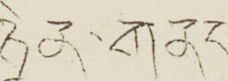ཉིན་གནང་
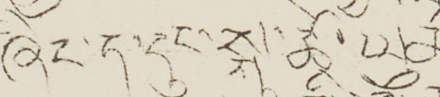ཞིང་ད་དུང་སྐུ་ཚེ་ཡུལ་རིང་འཚོ་བཞུགས་
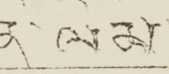ཀྱི་སྨོན་ལམ་ཞུ།།
